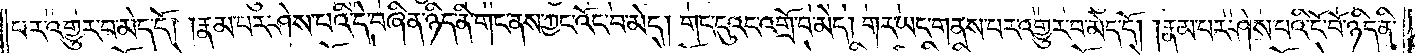པར་འགྱུར་བ་མེད་དོ། །རྣམ་པར་ཤེས་པའི་དེ་བཞིན་ཉིད་ནི་གང་ནས་ཀྱང་འོང་བ་མེད། གང་དུའང་འགྲོ་བ་མེད། གར་ཡང་གནས་པར་འགྱུར་བ་མེད་དོ། རྣམ་པར་ཤེས་པའི་ངོ་བོ་ཉིད་ནི་
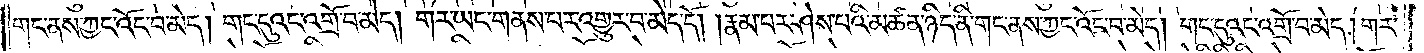གང་ནས་ཀྱང་འོང་བ་མེད། གང་དུའང་འགྲོ་བ་མེད། གར་ཡང་གནས་པར་འགྱུར་བ་མེད་དོ། །རྣམ་པར་ཤེས་པའི་མཚན་ཉིད་ནི་གང་ནས་ཀྱང་འོང་བ་མེད། གང་དུའང་འགྲོ་བ་མེད། གར་
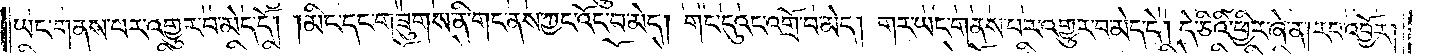ཡང་གནས་པར་འགྱུར་བ་མེད་དོ། །མིང་དང་གཟུགས་ནི་གང་ནས་ཀྱང་འོང་བ་མེད། གང་དུའང་འགྲོ་བ་མེད། གར་ཡང་གནས་པར་འགྱུར་བ་མེད་དེ། དེ་ཅིའི་ཕྱིར་ཞེ་ན། རབ་འབྱོར།
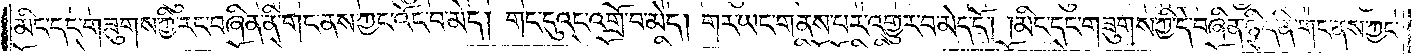མིང་དང་གཟུགས་ཀྱི་རང་བཞིན་ནི་གང་ནས་ཀྱང་འོང་བ་མེད། གང་དུའང་འགྲོ་བ་མེད། གར་ཡང་གནས་པར་འགྱུར་བ་མེད་དོ། །མིང་དང་གཟུགས་ཀྱི་དེ་བཞིན་ཉིད་ནི་གང་ནས་ཀྱང་
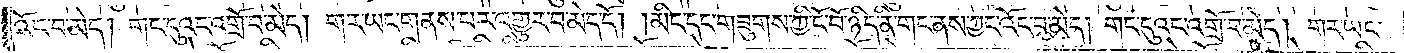འོང་བ་མེད། གང་དུའང་འགྲོ་བ་མེད། གར་ཡང་གནས་པར་འགྱུར་བ་མེད་དོ། །མིང་དང་གཟུགས་ཀྱི་ངོ་བོ་ཉིད་ནི་གང་ནས་ཀྱང་འོང་བ་མེད། གང་དུའང་འགྲོ་བ་མེད། གར་ཡང་
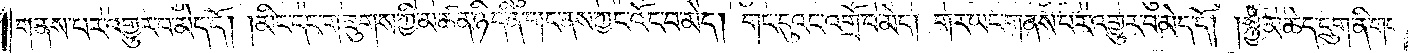གནས་པར་འགྱུར་བ་མེད་དོ། །མིང་དང་གཟུགས་ཀྱི་མཚན་ཉིད་ནི་གང་ནས་ཀྱང་འོང་བ་མེད། གང་དུའང་འགྲོ་བ་མེད། གར་ཡང་གནས་པར་འགྱུར་བ་མེད་དོ། །སྐྱེ་མཆེད་དྲུག་ནི་གང་
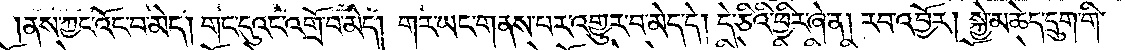ནས་ཀྱང་འོང་བ་མེད། གང་དུའང་འགྲོ་བ་མེད། གར་ཡང་གནས་པར་འགྱུར་བ་མེད་དེ། དེ་ཅིའི་ཕྱིར་ཞེ་ན། རབ་འབྱོར། སྐྱེ་མཆེད་དྲུག་གི་
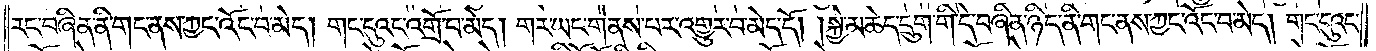རང་བཞིན་ནི་གང་ནས་ཀྱང་འོང་བ་མེད། གང་དུའང་འགྲོ་བ་མེད། གར་ཡང་གནས་པར་འགྱུར་བ་མེད་དོ། །སྐྱེ་མཆེད་དྲུག་གི་དེ་བཞིན་ཉིད་ནི་གང་ནས་ཀྱང་འོང་བ་མེད། གང་དུའང་
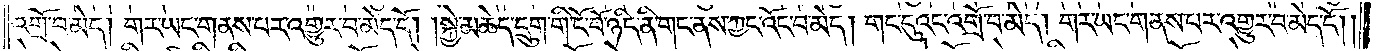འགྲོ་བ་མེད། གར་ཡང་གནས་པར་འགྱུར་བ་མེད་དོ། །སྐྱེ་མཆེད་དྲུག་གི་ངོ་བོ་ཉིད་ནི་གང་ནས་ཀྱང་འོང་བ་མེད། གང་དུའང་འགྲོ་བ་མེད། གར་ཡང་གནས་པར་འགྱུར་བ་མེད་དོ། །
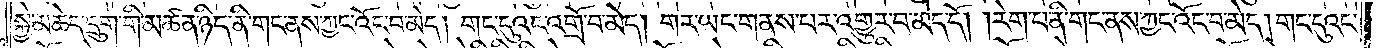སྐྱེ་མཆེད་དྲུག་གི་མཚན་ཉིད་ནི་གང་ནས་ཀྱང་འོང་བ་མེད། གང་དུའང་འགྲོ་བ་མེད། གར་ཡང་གནས་པར་འགྱུར་བ་མེད་དོ། །རེག་པ་ནི་གང་ནས་ཀྱང་འོང་བ་མེད། གང་དུའང་
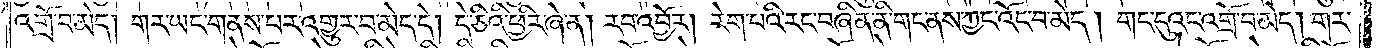འགྲོ་བ་མེད། གར་ཡང་གནས་པར་འགྱུར་བ་མེད་དེ། དེ་ཅིའི་ཕྱིར་ཞེ་ན། རབ་འབྱོར། རེག་པའི་རང་བཞིན་ནི་གང་ནས་ཀྱང་འོང་བ་མེད། གང་དུའང་འགྲོ་བ་མེད། གར་
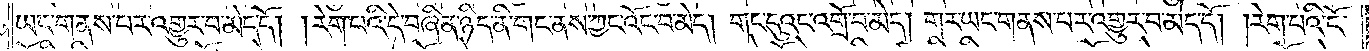ཡང་གནས་པར་འགྱུར་བ་མེད་དོ། །རེག་པའི་དེ་བཞིན་ཉིད་ནི་གང་ནས་ཀྱང་འོང་བ་མེད། གང་དུའང་འགྲོ་བ་མེད། གར་ཡང་གནས་པར་འགྱུར་བ་མེད་དོ། །རེག་པའི་ངོ་
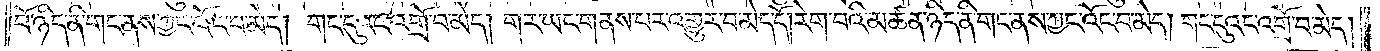བོ་ཉིད་ནི་གང་ནས་ཀྱང་འོང་བ་མེད། གང་དུའང་འགྲོ་བ་མེད། གར་ཡང་གནས་པར་འགྱུར་བ་མེད་དོ། །རེག་པའི་མཚན་ཉིད་ནི་གང་ནས་ཀྱང་འོང་བ་མེད། གང་དུའང་འགྲོ་བ་མེད།
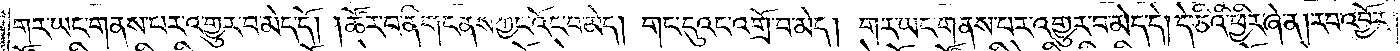གར་ཡང་གནས་པར་འགྱུར་བ་མེད་དོ། །ཚོར་བ་ནི་གང་ནས་ཀྱང་འོང་བ་མེད། གང་དུའང་འགྲོ་བ་མེད། གང་ཡང་གནས་པར་འགྱུར་བ་མེད་དེ། དེ་ཅིའི་ཕྱིར་ཞེ་ན། རབ་འབྱོར།
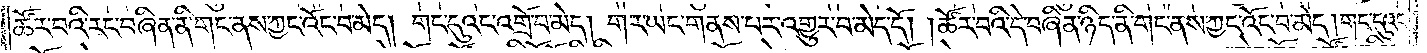ཚོར་བའི་རང་བཞིན་ནི་གང་ནས་ཀྱང་འོང་བ་མེད། གང་དུའང་འགྲོ་བ་མེད། གར་ཡང་གནས་པར་འགྱུར་བ་མེད་དོ། །ཚོར་བའི་དེ་བཞིན་ཉིད་ནི་གང་ནས་ཀྱང་འོང་བ་མེད། གང་དུའང་
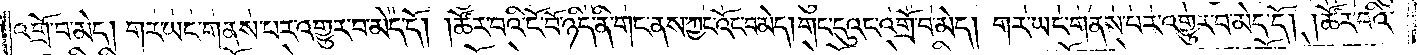འགྲོ་བ་མེད། གར་ཡང་གནས་པར་འགྱུར་བ་མེད་དོ། །ཚོར་བའི་ངོ་བོ་ཉིད་ནི་གང་ནས་ཀྱང་འོང་བ་མེད། གང་དུའང་འགྲོ་བ་མེད། གར་ཡང་གནས་པར་འགྱུར་བ་མེད་དོ། །ཚོར་བའི་
